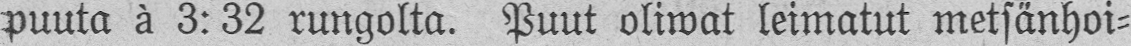puuta à 3:32 rungolta. Puut oliwat leimatut metsänhoi-
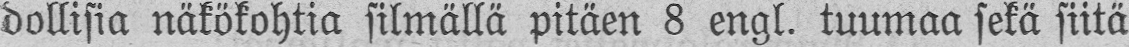dollisia näkökohtia silmällä pitäen 8 engl. tuumaa sekä siitä
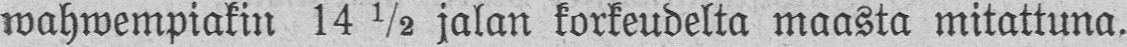wahwempiakin 14 ½ jalan korkeudelta maasta mitattuna.
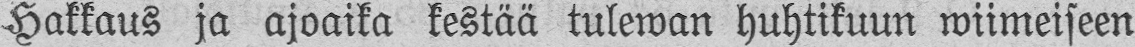Hakkaus ja ajoaika kestää tulewan huhtikuun wiimeiseen
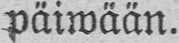päiwään.
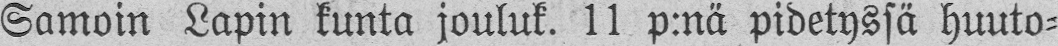Samoin Lapin kunta jouluk. 11 p:nä pidetyssä huuto-
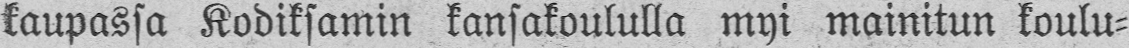kaupassa Kodiksamin kansakoululla myi mainitun koulu-
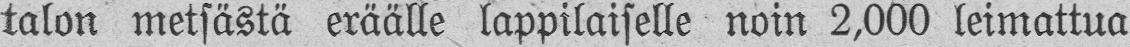talon metsästä eräälle lappilaiselle noin 2,000 leimattua
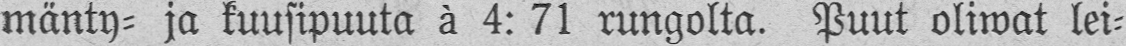mänty- ja kuusipuuta ä 4: 71 rungolta. Puut oliwat lei-
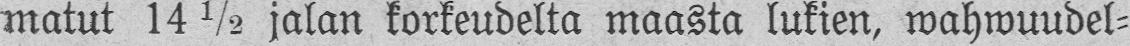matut 14½ jalan korkeudelta maasta lukien, wahwuudel-
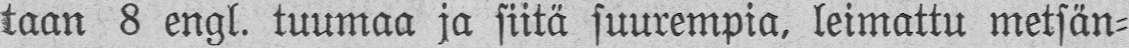taan 8 engl. tuumaa ja siitä suurempia, leimattu metsän-
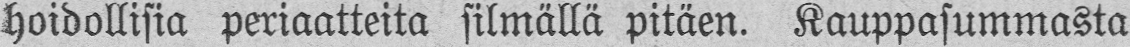hoidollisia periaatteita silmällä pitäen. Kauppasummasta
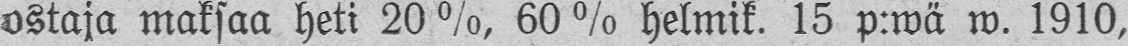ostaja maksaa heti 20%, 60% helmik. 15 p:wä w. 1910,
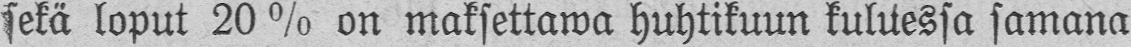sekä loput 20% on maksettawa huhtikuun kuluessa samana
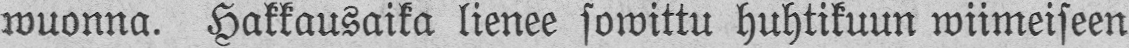wuonna. Hakkausaika lienee sowittu huhtikuun wiimeiseen
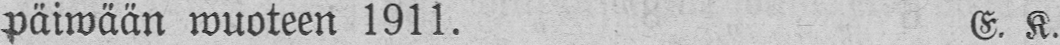päiwään wuoteen 1911. E. K.
